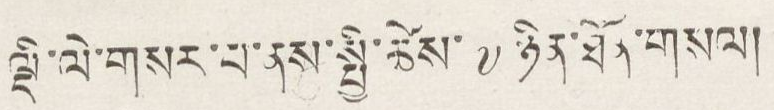ལྡི་ལི་གསར་པ་ནས་སྤྱི་ཚེས་ ༧ ཉིན་ཐོན་གསལ།
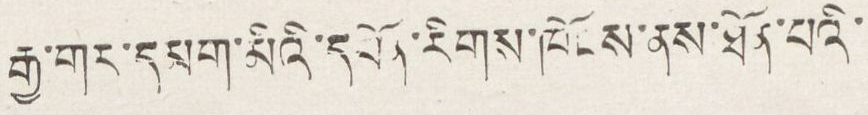རྒྱ་གར་དམག་མིའི་དཔོན་རིགས་ཁོངས་ནས་ཐོན་པའི་
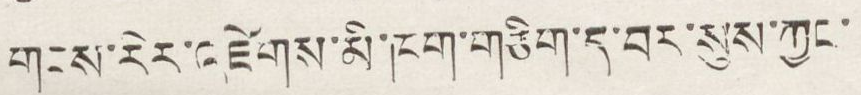གངས་རིར་འཛེགས་མི་ཁག་གཅིག་ད་བར་སུས་ཀྱང་
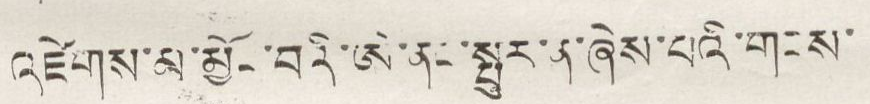འཛེགས་མ་མྱོང་བའི་ཨེ་ནང་སྤུར་ན་ཞེས་པའི་གངས་
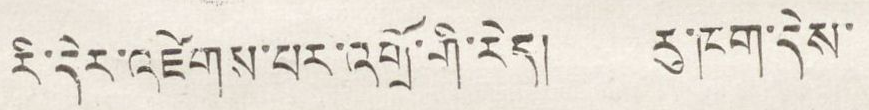རི་དེར་འཛེགས་པར་འགྲོ་གི་རེད། རུ་ཁག་དེས་
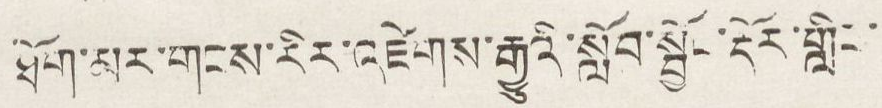ཐོག་མར་གངས་རིར་འཛེགས་རྒྱུའི་སློབ་སྦྱོང་རྡོར་གླིང་
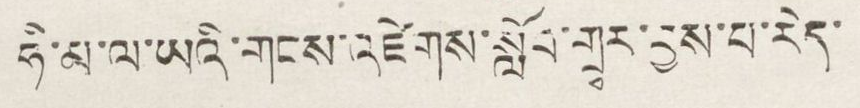ཧི་མ་ལ་ཡའི་གངས་འཛེགས་སློབ་གྲྭར་བྱས་པ་རེད་
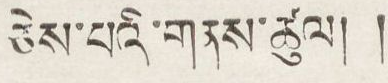ཅེས་པའི་གནས་ཚུལ། །
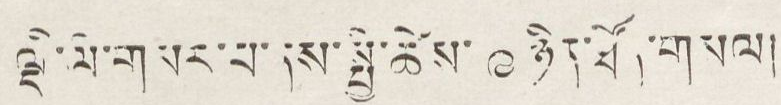ལྡི་ལི་གསར་པ་ནས་སྤྱི་ཚེས་ ༩ ཉིན་ཐོན་གསལ།
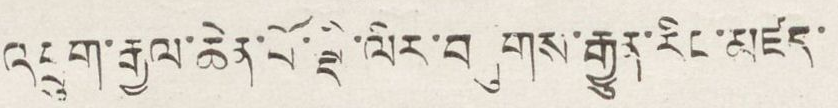འབྲུག་རྒྱལ་ཆེན་པོ་ལྡི་ལིར་བཞུགས་རྒྱུན་རིང་མཛད་
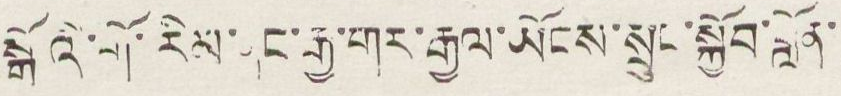སྒོའི་གོ་རིམ་ནང་རྒྱ་གར་རྒྱལ་ཡོངས་སྲུང་སྐྱོབ་བློན་
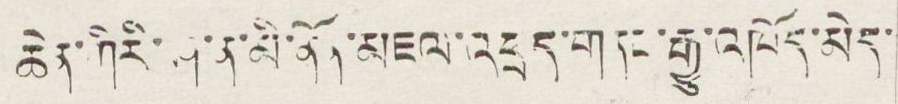ཆེན་ཀིརི་ཤི་ན་མི་ནོན་མཇལ་འཕྲད་གནང་རྒྱུ་འཁོད་མེད་
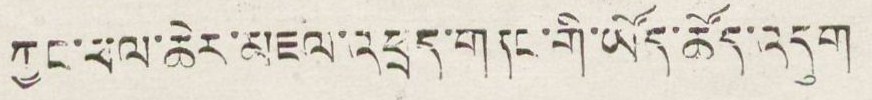ཀྱང་ཕལ་ཆེར་མཇལ་འཕྲད་གནང་གོ་ཡོད་ཚོད་འདུག་
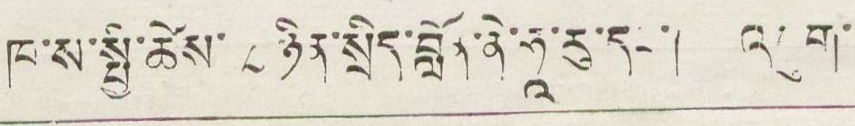ཁ་ས་སྤྱི་ཚེས་ ༨ ཉིན་སྲིད་བློན་ནེ་ཧཱ་རུ་དང་། འབྲུག་
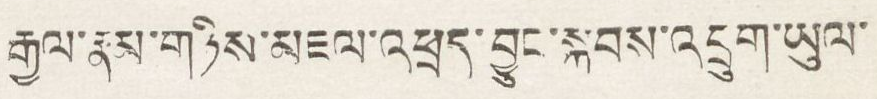རྒྱལ་རྣམ་གཉིས་མཇལ་འཕྲད་བྱུང་སྐབས་འབྲུག་ཡུལ་
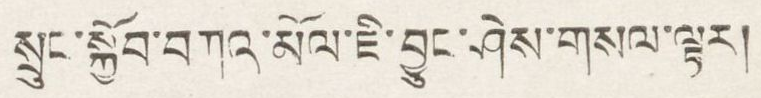སྲུང་སྐྱོབ་བཀའ་མོལ་ཇི་བྱུང་ཤེས་གསལ་ལྟར།
